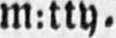M:tty.
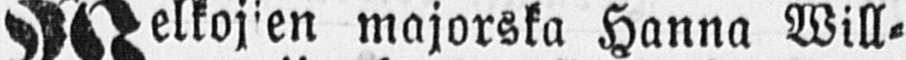Welkojien majorska Hanna Will-
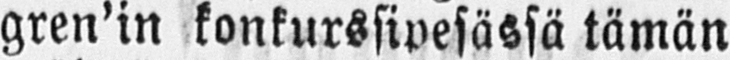gren'in konkurssipesässä tämän
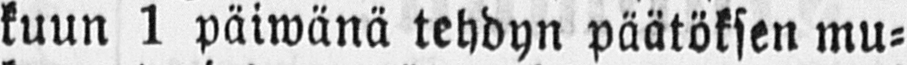kuun 1 päiwänä tehdyn päätöksen mu-
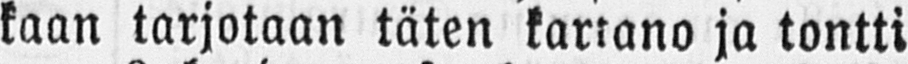kaan tarjotaan täten kartano ja tontti
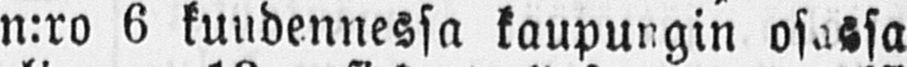n:ro 6 kuudennessa kaupungin osassa
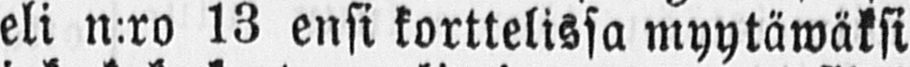eli n:ro 13 ensi korttelissa myytäwäksi
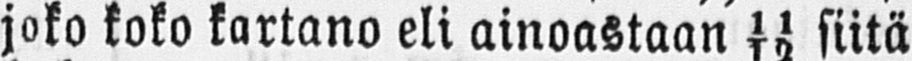joko koko kartano eli ainoastaan 11/12 siitä
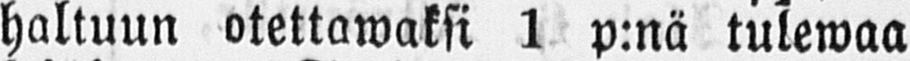haltuun otettawaksi 1 p:nä tulewaa
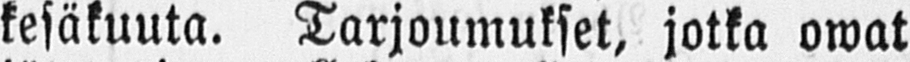kesäkuuta. Tarjoumukset, jotka owat
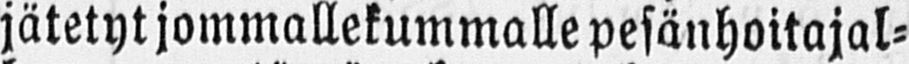jätetyt jommallekummalle pesänhoitajal-
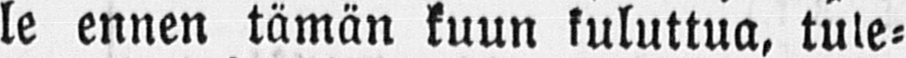le ennen tämän kuun kuluttua, tule-
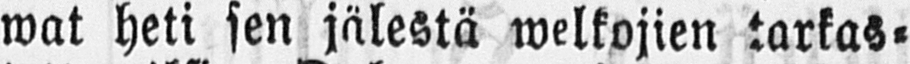wat heti sen jälestä welkojien tarkas-
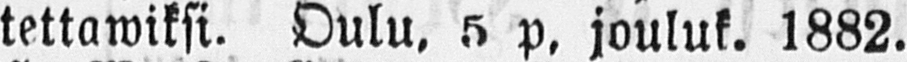tettawiksi. Oulu. 5 p. jouluk. 1882.
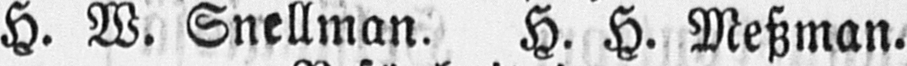H. W. Snellman. H. H. Metzman.
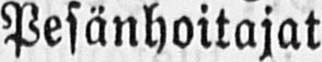Pesänhoitajat
